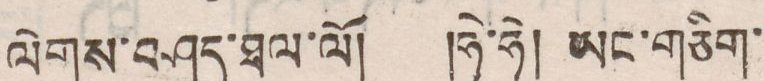ལེགས་བཤད་ཐལ་ལོ། །ཧེ་ཧེ། ཡང་གཅིག་
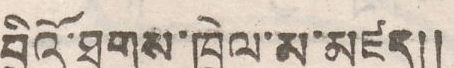བྲིའོ་ཐུགས་ཁྲེལ་མ་མཛད།།
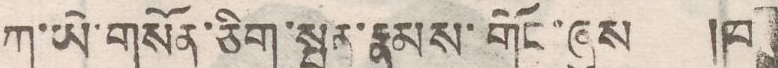ཀ་ཡེ་གསོན་ཅིག་སྤུན་རྣམས་གོང་ཞུས །ཁ
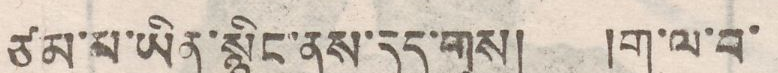ཙམ་མ་ཡིན་སྙིང་ནས་དད་གུས། །ག་ལ་བ་
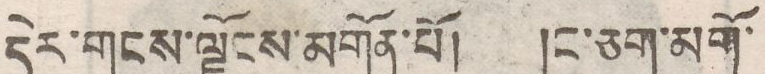དེར་གངས་ལྗོངས་མགོན་པོ། །ང་ཅག་མགོ་
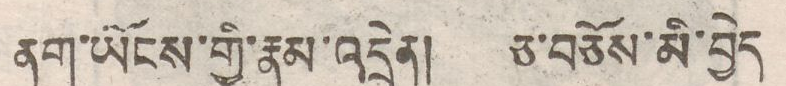ནག་ཡོངས་གྱི་རྣམ་འདྲེན། ཅ་བཅོས་མི་བྱེད
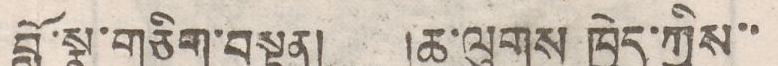བློ་སྣ་གཅིག་བསྟན། །ཆ་ལུགས ཁྱེད་ཀྱིས་་
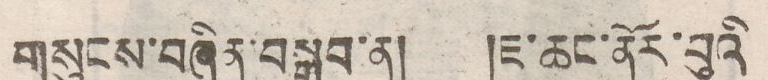གསུངས་བཞིན་བསྒྲུབ་ན། ཇ་ཆང་ནོར་བུའི
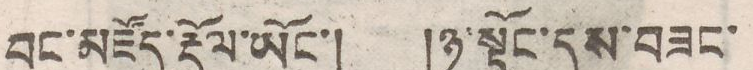བང་མཛོད་རྡོལ་ཡོང་། །ཉ་སྟོང་དུས་བཟང་
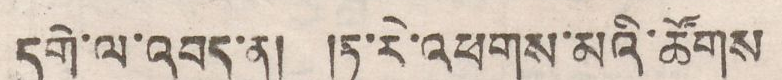དགེ་ལ་འབད་ན། །ཏ་རེ་འཕགས་མའི་ཚོགས
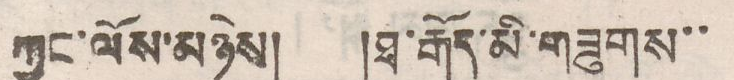ཀྱང་ལོས་མཉེས། །ཐ་རྒོད་མི་གཟུགས་་
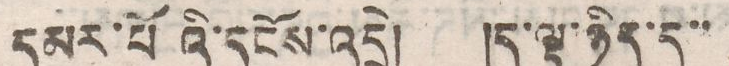དམར་པོའི་དངོས་འདྲེ། །ད་ལྟ་ཉིད་དུ་་
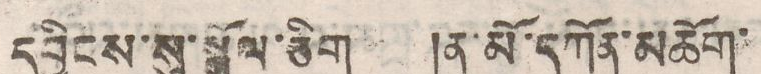དབྱིངས་སུ་སྒྲོལ་ཅིག །ན་མོ་དཀོན་མཆོག་
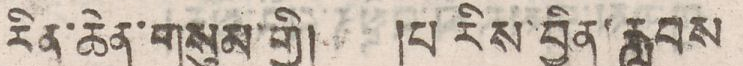རིན་ཆེན་གསུམ་གྱི། །པ རིས་བྱིན་རླབས
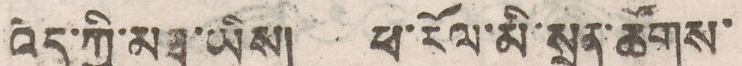འོད་ཀྱི་མཐུ་ཡིས། ཕ་རོལ་མི་སྲུན་ཚོགས་
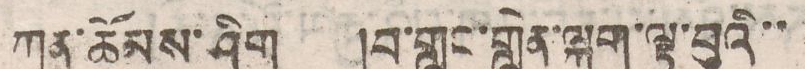ཀུན་ཆོམས་ཤིག །བ་གླང་གླེན་ལྐུག་ལྟ་བུའི་་
